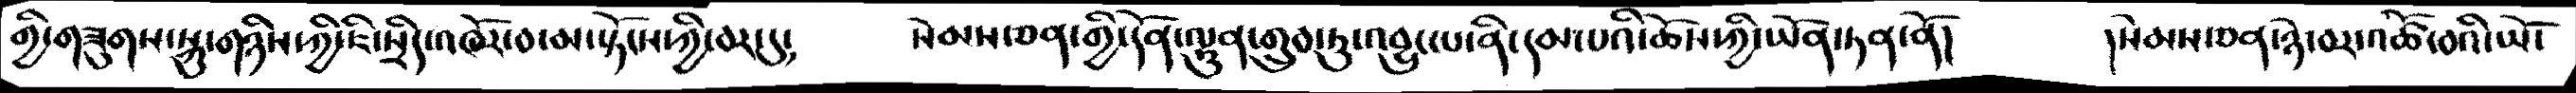གྱི་གཟུགས་སྐུ་གཉིས་ཀྱི་ཇི་སྲིད་འཁོར་བ་མ་སྟོངས་ཀྱི་བར་དུ༴    སེམས་ཅན་གྱི་དོན་ལྷུན་གྲུབ་ཏུ་འབྱུང་པ་ནི་དམ་པའི་ཆོས་ཀྱི་ཡོན་ཏན་ནོ།  ། སེམས་ཅན་ཉེ་བར་འཚོ་བའི་ཡོ་
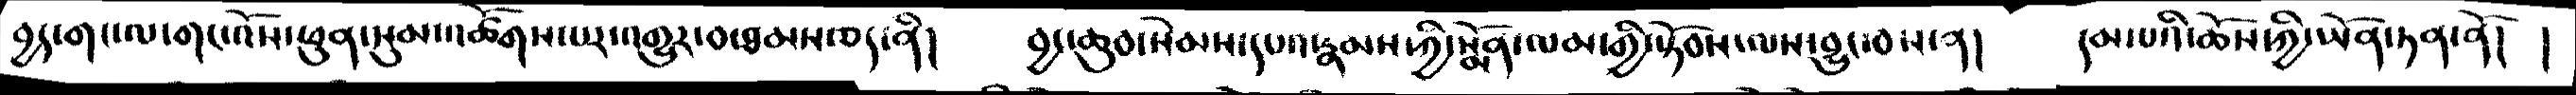བྱད་གང་ལ་གང་འོས་ཕུན་སུམ་འཚོགས་པར་འགྱུར་བ་ཐམས་ཅད་ནི།      བྱང་ཆུབ་སེམས་དཔའ་རྣམས་ཀྱི་སྨོན་ལམ་གྱི་སྟོབས་ལས་བྱུང་བས་ན།  དམ་པའི་ཆོས་ཀྱི་ཡོན་ཏན་ནོ། །
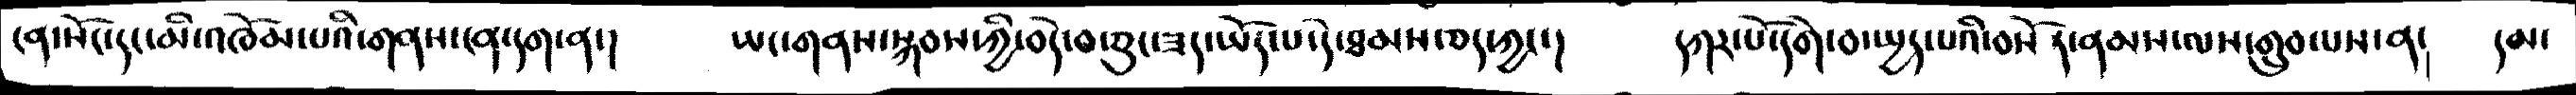ངན་སོང་དང་མི་འཁོམ་པའི་གནས་ངན་དག་ན་།   ཡང་གནས་སྐབས་ཀྱི་བདེ་བ་ཅུང་ཟད་ཡོད་པ་དེ་ཐམས་ཅད་ཀྱང་།  དཀར་པོ་དགེ་བ་སྤྱད་པའི་བསོད་ནམས་ལས་གྲུབ་པས་ན་   དམ་
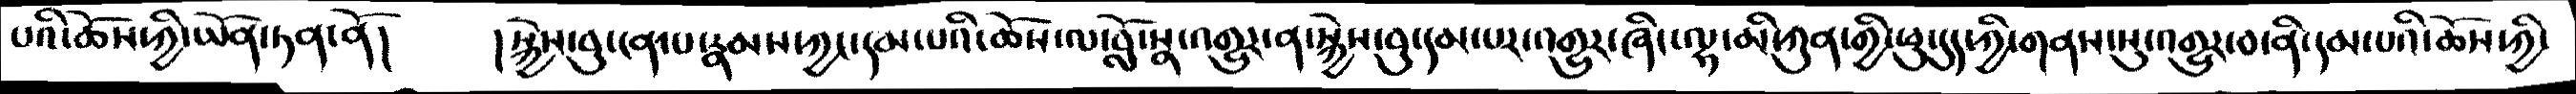པའི་ཆོས་ཀྱི་ཡོན་ཏན་ནོ།  ། སྐྱེས་བུ་ངན་པ་རྣམས་ཀྱང་དམ་པའི་ཆོས་ལ་བློ་སྣ་འགྱུར་ན་སྐྱེས་བུ་དམ་པར་འགྱུར་ཞིང་ལྷ་མི་ཀུན་གྱི་ཕུ་དུད་ཀྱི་གནས་སུ་འགྱུར་བ་ནི་དམ་པའི་ཆོས་ཀྱི་
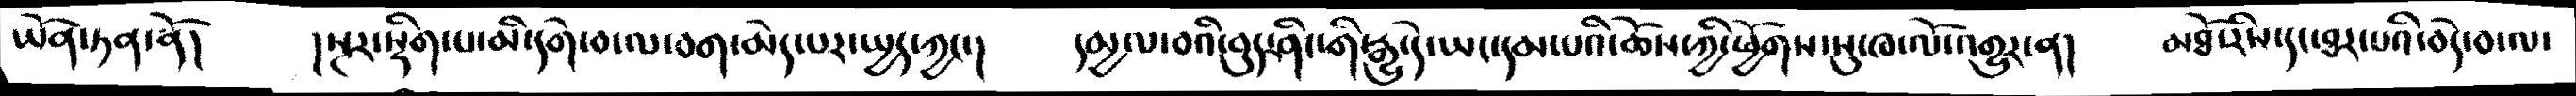ཡོན་ཏན་ནོ།   །སྔར་སྡིག་པ་མི་དགེ་བ་ལ་བག་མེད་པར་སྤྱད་ཀྱང་།  དམྱལ་བའི་བུད་ཤིང་གི་རྒྱུ་དེ་ཡང་དམ་པའི་ཆོས་ཀྱི་ཕྱོགས་སུ་ཁ་ལོ་འགྱུར་ན།  མཐོ་རིས་དང་ཐར་པའི་བདེ་བ་ལ་
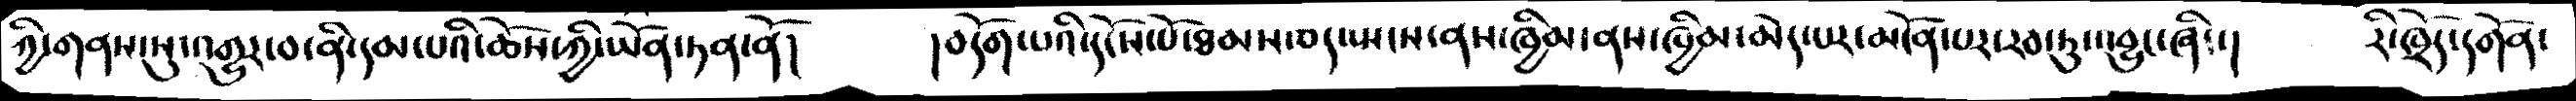ཀྱི་གནས་སུ་འགྱུར་བ་ནི་དམ་པའི་ཆོས་ཀྱི་ཡོན་ཏན་ནོ།  །བདོག་པའི་དངོས་པོ་ཐམས་ཅད་སྤངས་ནས་ཁྱིམ་ནས་ཁྱིམ་མེད་པར་མངོན་པར་རབ་ཏུ་འབྱུང་ཞིང་།  རི་ཁྲོད་དགོན་
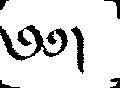༄༅།
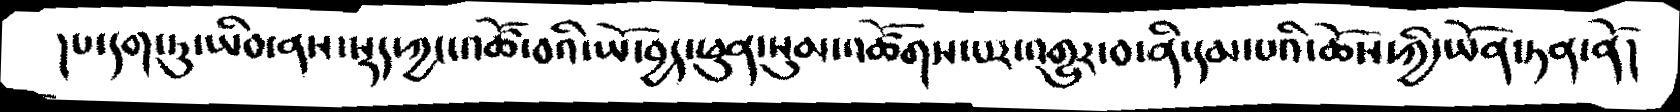།པ་དག་ཏུ་ཡིབ་ནས་སྡད་ཀྱང་འཚོ་བའི་ཡོ་བྱད་ཕུན་སུམ་འཚོགས་པར་འགྱུར་བ་ནི་དམ་པའི་ཆོས་ཀྱི་ཡོན་ཏན་ནོ།
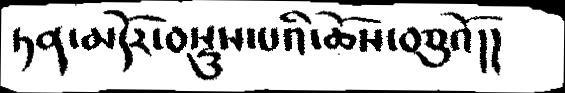ཏན་མདོར་བསྡུས་པའི་ཆོས་བཅུའོ།།
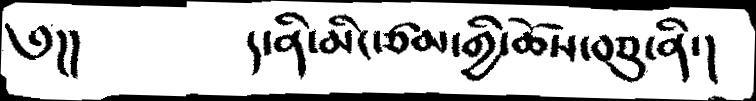༄།།   ད་ནི་མིང་ཙམ་གྱི་ཆོས་བཅུ་ནི་།
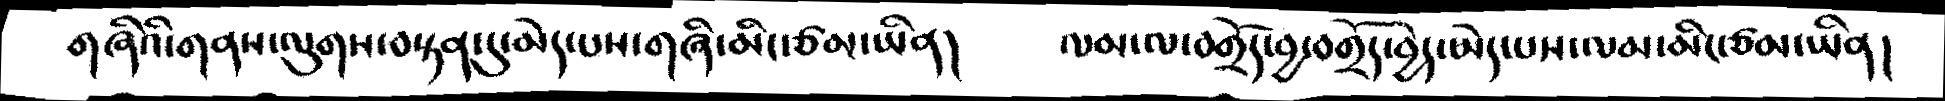གཞའི་གནས་ལུགས་བསྟན་དུ་མེད་པས་གཞི་མིང་ཙམ་ཡིན།    ལམ་ལ་བགྲོད་བྱ་བགྲོད་བྱེད་མེད་པས་ལམ་མིང་ཙམ་ཡིན།
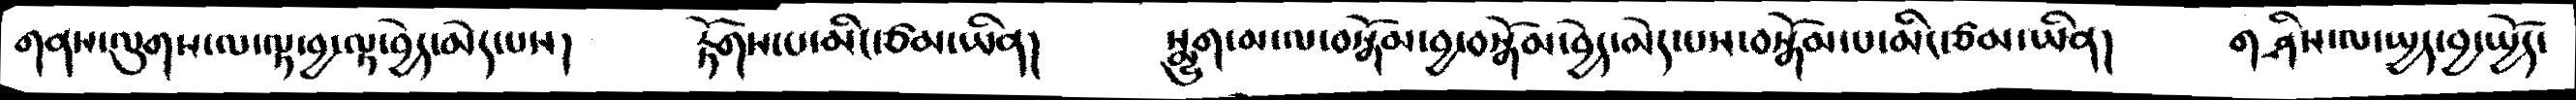གནས་ལུགས་ལ་ལྟ་བྱ་ལྟ་བྱེད་མེད་པས།  རྟོགས་པ་མིང་ཙམ་ཡིན།  སྨྱུག་མ་ལ་བསྒོམ་བྱ་བསྒོམ་བྱེད་མེད་པས་བསྒོམ་པ་མིང་ཙམ་ཡིན།  གཤིས་ལ་སྤྱད་བྱ་སྤྱོད་
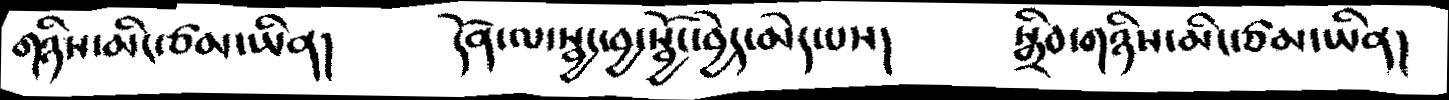གཉིས་མིང་ཙམ་ཡིན།   དོན་ལ་སྦྱང་བྱ་སྦྱོང་བྱེད་མེད་པས།   སྒྲིབ་གཉིས་མིང་ཙམ་ཡིན།
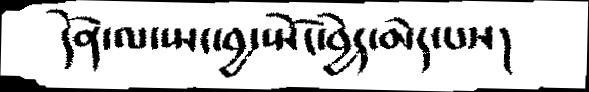དོན་ལ་སྤང་བྱ་སྤོང་བྱེད་མེད་པས།
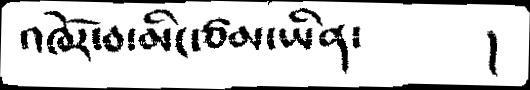འཁོར་བ་མིང་ཙམ་ཡིན་      །
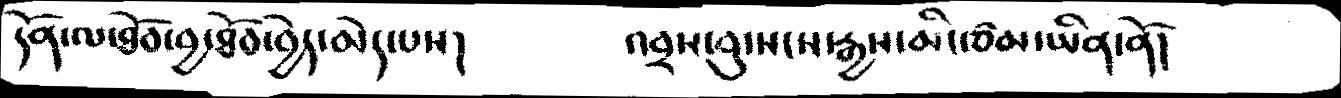དོན་ལ་ཐོབ་བྱ་ཐོབ་བྱེད་མེད་པས།    འབྲས་བུ་སངས་རྒྱས་མིང་ཙམ་ཡིན་ནོ།
